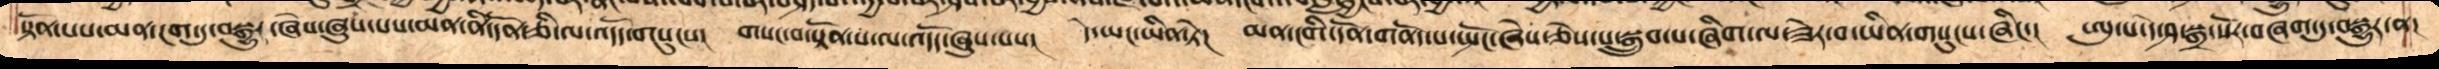སྟོན་པས་མན་ངག་དུ་བསྒྱུར་ཞེས་ཞུས་པས་མན་ནི་དོན་ཅི་ལ་འདོད་གསུངས།   གསང་བ་སྟོན་པ་ལ་འདོད་ཞུས་པས།   དེ་ཡང་ཡིན་ཏེ།  མན་ངགི་དོན་གནོད་པ་སྤོང་ཞེས་ཅེས་པ་སྒྲུབ་པ་ཞིག་ལ་ཟེར་བ་ཡིན་གསུངས་ཞིང་།  ཨུ་པ་དེ་ཤ་སྒྲ་སོར་བཞག་ཏུ་བསྒྱུར་ན།
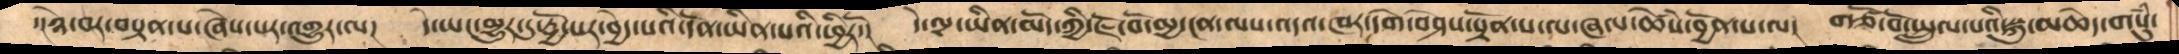་།ཉེ་བར་བསྟན་པ་ཞེས་པར་འགྱུར་ལ།   དེ་ཡང་མྱུར་དུ་བྱོ་པར་བྱེད་པའི་དོན་ཡིན་པའི་ཕྱིརོ་།    དེ་ལྟ་ཡིན་མོད་ཀྱི་ཇོ་བོ་མྱ་ངན་ལས་འདའ་ཁར་དགེ་བཤེས་སྟོན་པ་ལ་ཞལ་ཆེཾས་བྱོན་པ་ན།  གཙོ་བོ་སྤྲུལ་པའི་སྐུ་མཆེད་གསུཾ་
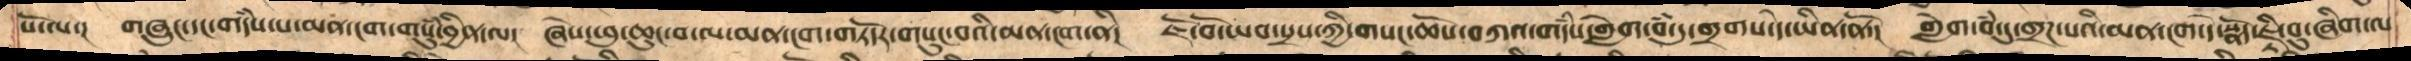པོ་ལ། གཞུང་དང་གདཾས་པ་མན་ངག་གསུཾ་བྱིན་ལ།  ཞེས་ཕུ་ཆུང་བ་ལ་མན་ངག་གཏོདར་གསུང་བའི་མན་ངག་ནི།  ཇོ་བོ་ཡབ་སྲས་ཀྱི་གསང་ཆོས་བཀའ་གདཾས་གླེག་བཾ་དུ་གྲགས་དེ་ཡིན་ནོ་།   གླེག་བཾ་དུ་གྲཌ་པའི་མན་ངག་དེ་སྣོད་ཇྟིབུ་ཞིག་ལ
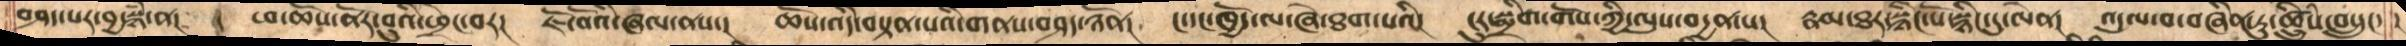བཤད་པར་བྱ་སྙཾ་ན།   ཕ་ཆོས་ནོར་བུའི་ཕྲེང་བར།   ཇོ་བོའི་ཞལ་ནས་།   ཆོས་འདི་བསྟན་པའི་གནས་བཤད་ཉོན།  ང་དང་ཁྱོད་ལ་ཞེ་ཐག་པའི། ངུར་སྨྲིག་གོས་ཀྱི་ལུས་བདྱན་པ།  རྣམ་ཐར་སྙིང་པོ་སྙིང་དུ་ལེན། འདུལ་བབཞིན་ཏུ་ཚྲིུཾས་བསྲུང་། །
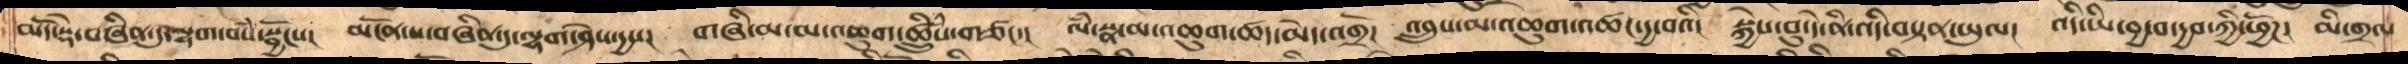མདོ་སྡེ་བཞིན་དུ་ལྷག་བསཾ་སྦྱོངས་།   མངོན་པ་བཞིན་དུ་ལྷག་ཤེས་དྱས།   གཞི་མ་མ་འཆུག་ཚྲིུཾས་གཙང་།  ལཾ་སྣ་མ་འཆུག་ཚད་མེད་འགྲོ།  འབྲུས་མ་འཆུག་འཚང་དྱ་བའི།  སྐྱེས་བུ་དེ་ནི་འདི་བསྟན་ཡུལ།  འདི་ཡི་བྱ་བ་རྒྱབ་ཀྱི་ཕྱོཌ།  མི་གྲལ
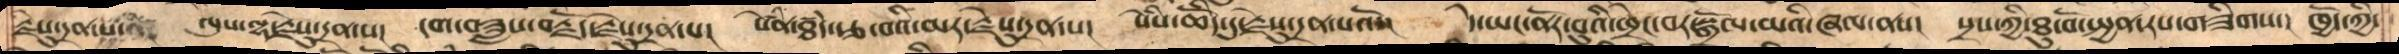རྗེས་སུ་དྲན་པ།  ལུས་ལྷ་རྗེསུ་དྲན་པ།   ངག་བཟླས་བརྗོད་་རྗེསུ་དྲན་པ།  སེཾན་ཐཾད་རྩ་བའི་མར་རྗེསུ་དྲན་པ།  སེཾས་ཆོིད་དུ་རྗེསུ་དྲན་པའོ་།  དེ་ཡང་ནོར་བུའི་ཕྲེང་བར་སྒྲོལ་མའི་ཞལ་ནས་།   སྲས་ཀྱི་ཐུ་བོ་སྤྱན་རས་གཟིགས་།།  ཁྱོད་ཀྱི་
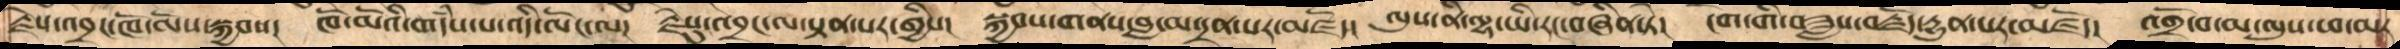རྗེས་འབྲང་ཁོ་མོས་སྐྱབས།  ཁོ་མོའི་གདཾས་པ་འདི་ལོང་ལ།  རྗེསུ་འབྲང་ལ་སྟན་པར་གྱིས།  སྐྱབས་གནས་བླ་མ་དྲན་པར་མཛོད།  ལུས་ནི་ལྷ་ཡི་རང་བཞིན་ཏེ།  ངག་གི་བཟླས་བརྗོད་རྒྱུན་པར་མཛོད། འགྲོ་བ་མ་ལུས་ཕ་མར
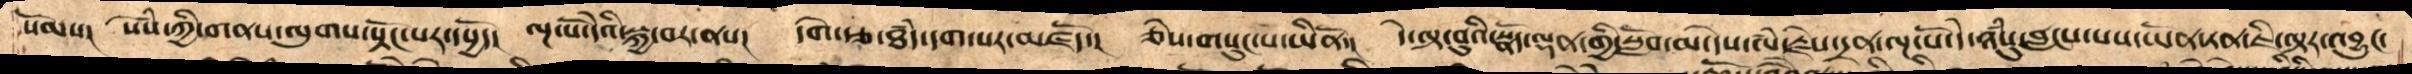སོམས་།   སེཾས་ཀྱི་གནས་ལུགས་སྟོང་པར་དཔྱོད།  ལྔ་པོ་དེའི་སྐྱ་བར་ནས།   དགེ་རྩ་ཐཾད་དག་པར་མཛོད་།  ཅེས་གསུངས་པ་ཡིནོ་།  དེ་ལྟ་བུའི་སྣོད་ལྡན་གྱི་སློབ་མ་དེས་ལཾ་རྗེས་དྲན་ལྔ་པོ་དེ་ཉཾསུ་བླངས་པས་ཡོན་ཏན་ཇི་ལྟར་འབྱུང་
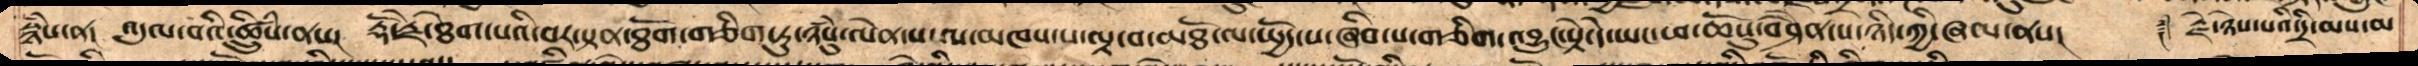སྙཾས་ན།  འདུལ་བའི་ཚྲིུཾས་ནས།  རྡོ་རྗེ་ཐེག་པའི་བར་སྟན་ཐོག་གཅིག་ཏུ་ཉཾསུ་ལེན་པ་ལ་མཁས་པ་ལྟ་བ་མཐོ་ལ་སྤྱོད་པ་ཞིབ་པ་གཅིག་འབྱུང་སྟེ་དེ་ཡང་ཕ་ཆོསུ་བཤཻན་པ་ཉིད་ཀྱི་ཞལ་ནས།  ༈རྗེ་ཉེས་པའི་དྲི་མས་མ་
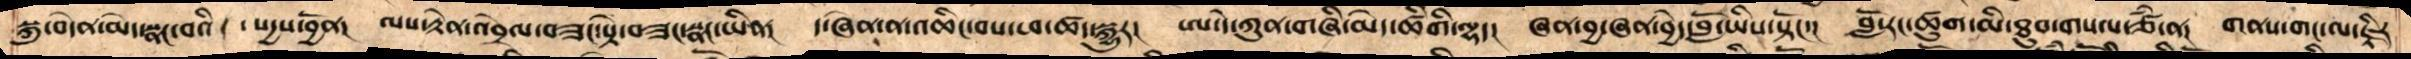སྐུ་བདེན་མེད་སྣང་བའི་སདྱས་བྱོན། ལས་རྟེན་འབྲེལ་བཟང་སྟེ་བཟང་སྣང་ཡིན།  ད་ཞེན་ན་འཆིང་བས་ཕ་ཚད་སྐྱུར།  ཨ་དེ་ཀུན་གཞི་མེད་ཚིགི་ལྷད། །ཞན་བྱ་ཞན་བྱེད་བློ་ཡིས་སྟོང་།   བློ་རང་ཚུག་མི་ཐུབ་གསལ་ཙཾ་ན། །གནས་གང་ལཇྟིར་
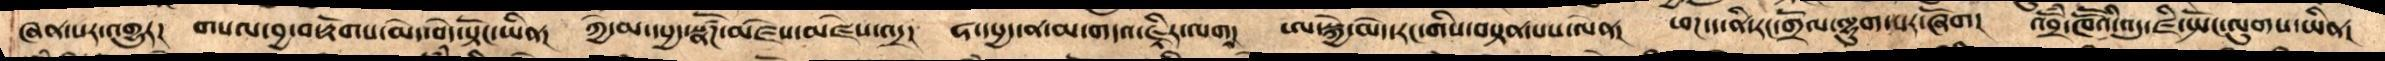ཞན་པར་འགྱུར། གསལ་བྱ་བ་རྟོགས་མེད་བདེ་སྟོང་ཡིན། ཀྱེ་མ་དཔྱད་སྣཚོཌ་མཛེས་མཛེས་འདྲ།  ཧ་དཔྱད་ན་མ་གདའ་ཇྟིར་ལགས། ཨ་སྐྱེ་མེད་རང་གིས་བསྟན་པས་ལེན། ཕཌ་ད་ནི་རང་གྲོལ་ལྷུག་པར་ཞོག །འབྲོཾ་ཁཽའི་འདུ་ཛི་སྤོང་ལུགས་ཡིན།
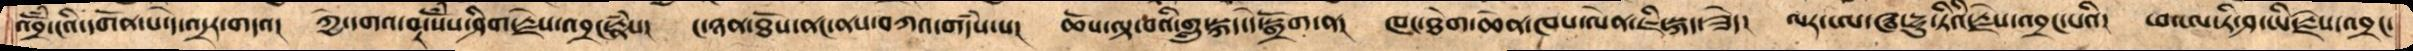འབྲོཾ་ངའི་དགོན་པ་དེ་འདྲར་གདའ།  ཀྱེ་དགའ་བར་སོཾས་ཤིག་རྗེས་འབྲང་རྣཾས།   ང་ཉན་ཐོས་ནང་ནས་བཀའ་གདཾས་པ།  ཆོས་ལྟ་བའི་གླུ་སྐད་དེ་སྒྲོག་ན། ཁང་ཐེག་ཆེན་ཁས་ལེན་ཇི་སྐད་ཟེད།  ལར་ཨ་ཝ་དྷུ་ཏིའི་རྗེས་འབྲང་བའི། ཕ་ཨ་ཏི་ཤ་ཡི་རྗེས་འབྲང་
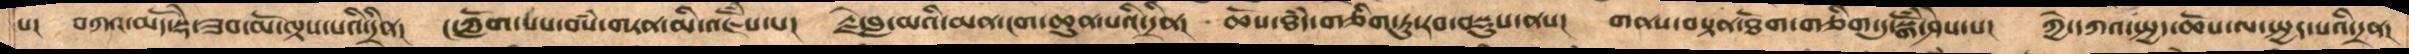པ། བཀའ་མདོ་སྡེ་ཟབ་མོ་ལྟས་པའི་དྲིན།   ང་ཀློག་པས་བསཾ་གཏན་མི་འཇོཾས་པ། རྗེ་བླ་མའི་མན་ངག་ཆུན་པའི་དྲིན།  ཆོས་ཐཾད་གཅིག་ཏུ་རབ་བསྡུས་ནས།   གནས་བསྟན་ཐོག་གཅིག་དུ་བསྒོཾ་ཤེས་པ།  ཀྱེ་དཀའ་སྤྱད་ཆོས་ལ་སྤྱད་པའི་དྲན།
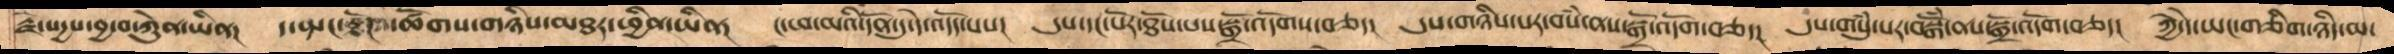རྗེ་སདྱས་བྱ་བ་ཀེུན་ཡིན།     ད་སྤངས་རྟོཌ་ཚོགས་གཉིས་མཐར་ཕྱིན་ཡིན།   ང་ཕ་མའི་དོན་དུ་དེ་འདོད་པས།   དུས་དང་པོར་ཐོས་པས་སྒྲོ་འདོགས་བཅད།   དུས་གཉིས་པར་བསཾ་ནས་སྒྲོ་འདོག་བཅད།  དུས་གསུཾ་པར་བསྒོཾ་ནས་སྒྲོ་འདོགས་བཅད།  ཀྱེ་དེ་ཡང་གཅིག་ཉིད་མ་
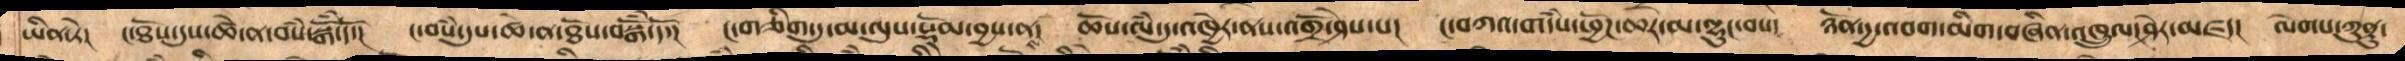ཡིན་ཏེ།   ང་ཐོས་དུས་ཚེ་ན་བསཾ་སྒོཾ་དོ།  ང་བསཾ་དུས་ཚེ་ན་ཐོས་བསྒོཾ་དོ།   །་གཅིག་ཏུ་མ་ལུས་སྡོམ་བྱས་ནས།   ཆོས་ལཾ་དུ་འཁྱེར་ནས་འགྲོ་ཤེས་པ།  ང་བཀའ་གདཾས་ཕྱོཌ་ཆེར་མ་ལྷུང་བས།   ཉོན་དྱ་འབག་མིག་བཞིན་འཁྲུལ་ཤེར་མཛད།  ལེགས་ཀུནྟུ་
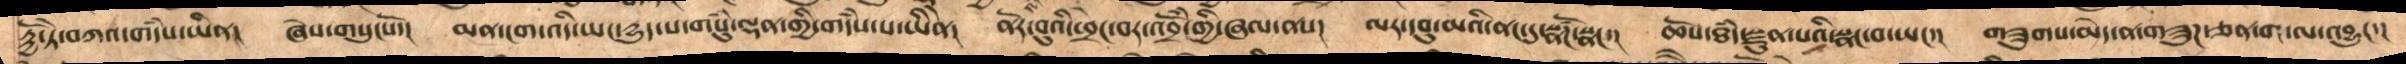རྟྱོ་ཏེ་བཀའ་གདཾས་ཡིན།   ཞེས་གསུངསོ།   མན་ངག་འདི་ཡང་རྒྱུད་པ་གསུཾ་ལྡན་གྱི་གདཾས་པ་ཡིནེ།   ནོར་བུའི་ཕྲེང་བར་འབྲོཾ་གྱི་ཞལ་ནས།  ལར་དབུ་མའི་ནང་དུ་སྣཚོཌ་སྣང་།   ཆོསཐཾད་སྫུན་པའི་སྣང་བ་ཡང་།   གཟུགས་མེད་ན་གཟུཌ་ཅན་ག་ལ་འབྱུང་།
